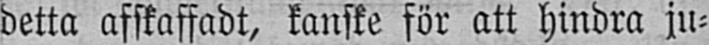detta afskaffadt, kanske för att hindra ju-
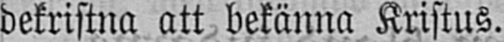dekristna att bekänna Kristus.
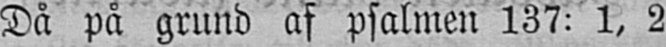Då på grund af psalmen 137: 1, 2
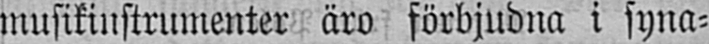musikinstrumenter äro förbjudna i syna-
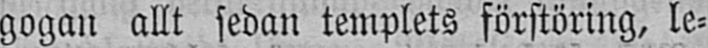gogan allt sedan templets förstöring, le-
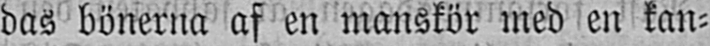das bönerna af en manskör med en kan-
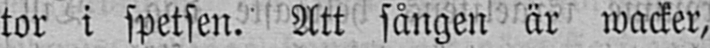tor i spetsen. Att sången är wacker,
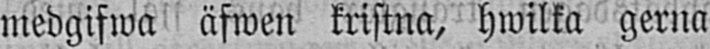medgifwa äfwen kristna, hwilka gerna
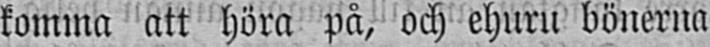komma att höra på, och ehuru bönerna
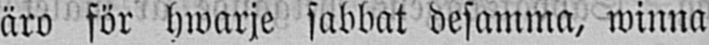äro för hwarje sabbat desamma, winna
